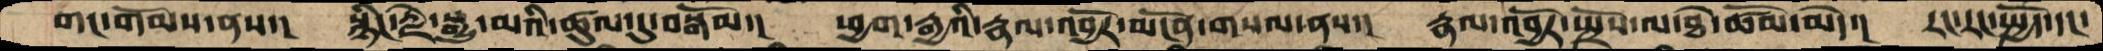གང་གོམས་ནས་།  སྙིང་རྗེ་སྒྱུ་མའི་ཚུལ་དུ་བསྒོམ་།  ཕྱག་རྒྱའི་རྣལ་འབྱོར་མངོན་གསལ་ནས་།  རྣལ་འབྱོར་སྤྲོས་ལ་ཐེ་ཚོམ་མེད་།  རང་རང་སྤྱོད་དང་
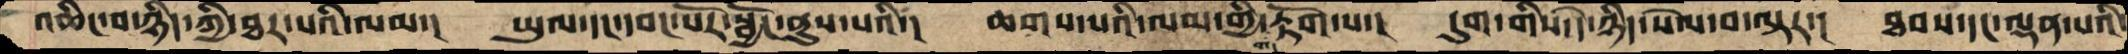འཆིང་བ་ཉིད་ཀྱི་ཐར་པའི་ལམ་། ཡུལ་དང་དབང་པོར་སྦྱོང་ནུས་པའི་། ཆགས་པའི་ལམ་གྱི་གོ་རྟོག་པ་། དུག་གིས་དེ་ཉིད་སེལ་བ་ལྟར་། ཐབས་དང་ལྡན་པའི་
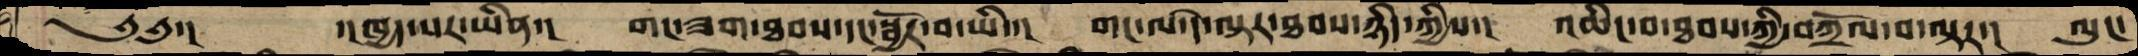༄༅་།  ་།ཁྱད་པར་ཡིན་། གང་ཟག་ཐབས་དང་སྦྱོར་བ་ཡིད་། གང་ལ་དེ་ལྟར་ཐབས་ཉིད་ཀྱིས་། འཆིང་བ་ཐབས་ཀྱི་བཀྲོལ་བ་ལྟར་། ལུང་
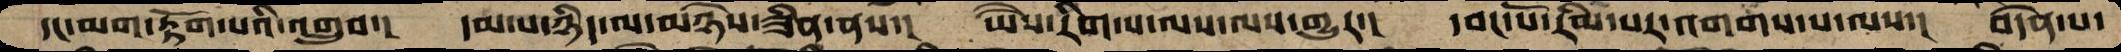དང་མག་རྟོག་པའི་འགྲུབ་།  དམ་པ་ཉིད་ལ་མཉེས་ཟིན་ནས་།  ཡཻས་རིག་པ་ལས་ལས་གྱུར་།  དབང་པོ་རིམ་པར་འགགས་པ་ལས་།  བདེན་པ་
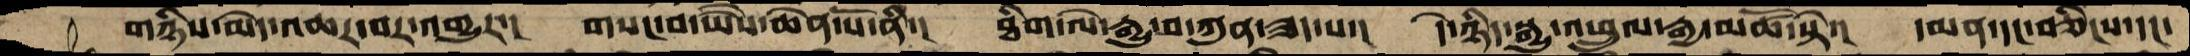གཉིས་མེད་འཆར་བར་འགྱུར་། གསང་བ་ཡཻས་ཆེན་པོ་ནི་། ཐིག་ལེ་རྒྱུ་བ་ཀུན་ཟད་པ་། དེ་ཉིད་སྒྱུ་འཕྲུལ་རྒྱ་མཚོ་སྟེ་། དམན་དང་བཅིངས་དང་
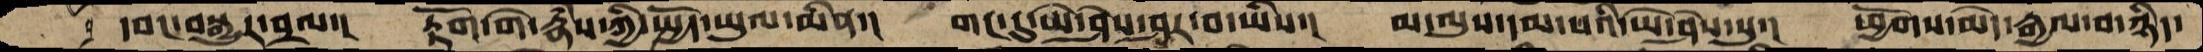དབང་བསྒྱུར་བྲལ་། རྟོག་གེ་རྣཾས་ཀྱི་སྤྱོད་ཡུལ་མིན་། གང་དུ་ཡེ་ཤེས་ཤར་བ་ཡིས་། མ་ལུས་དམ་པའི་ཡེ་ཤེས་སུ་། ཕྱོགས་མེད་རྒྱལ་བ་ཉིད་
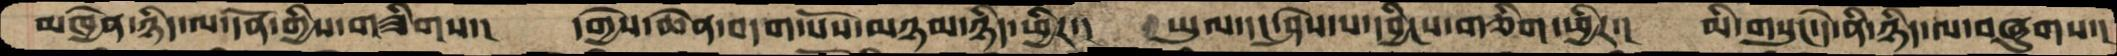མཁྱེན་ཉིད་ལ་དོན་གྱིས་གཟིགས་།  དགྱེས་ཆེན་བདག་པོས་མཉམ་ཉིད་ཕྱིར་།  ཡུལ་དང་ཤེས་པ་དབྱིངས་གཅིག་ཕྱིར་།  མི་གསུང་དེ་ནི་ཉིད་ལ་བཞུགས་།
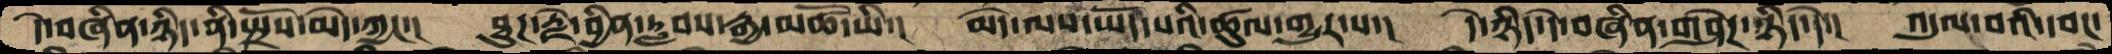དེ་བཞིན་ཉིད་ནི་སྤྲོས་མེད་ཀྱང་།  ཐུཌ་རྗེ་བྱིན་རླབས་རྒྱ་མཚོ་ཡི་།  མེད་ལས་ཡོད་པའི་ཚུལ་གྱུར་པ་།  དེ་ཉིད་དེ་བཞིན་གཤེཌ་ཉིད་དེ་།  འདུལ་བའི་དབང་
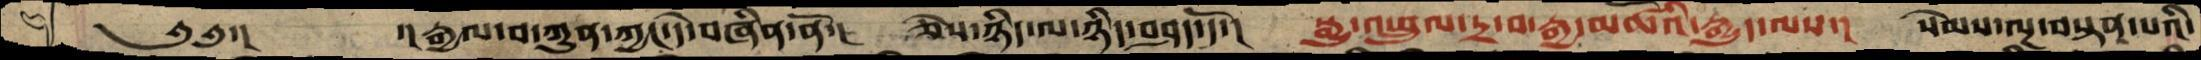༄༅་།    ་།རྒྱལ་བ་ཀུན་ཀྱང་དེ་བཞིནནོ་། ཅེས་ཉིད་ལ་ཉིད་བཤད་དོ་། སྒྱུ་འཕྲུལ་དྲ་བ་རྒྱ་མཚོའི་རྒྱུད་ལས་། སེམས་ལྔ་བསྟན་པའི་
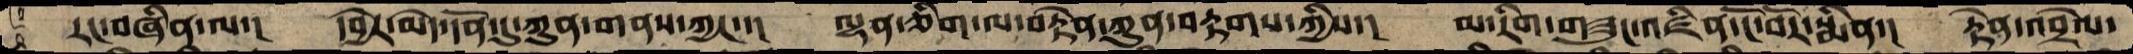རང་བཞིན་ལ་།  དབྱེར་མེད་དོན་དུ་ཀུན་གནས་ཀྱང་་།  ལྡན་ཅིག་ལ་བརྟེན་ཀུན་བརྟགས་ཀྱིས་།  མ་རིག་གཟུང་འཛིན་ངོ་བོར་སྨིན་།  རྟེན་འབྲེལ་
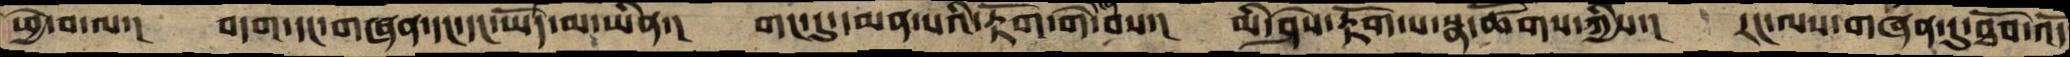ཕྱེ་བ་ལ་།  བདག་དང་གཞན་དང་དང་ཡོད་མ་ཡིན་།  གང་དུ་མན་པའི་རྟོག་གེ་བས་།  མི་ཤེས་རྟོག་པ་སྣ་ཚོགས་ཀྱིས་།  རང་ལས་གཞན་དུ་ཐོབ་འདོ
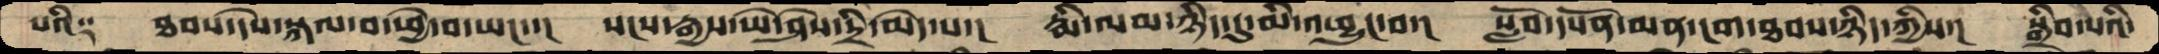པའི༑  ཐབས་དེས་སྐལ་བ་ཕྱེ་བ་ཡང་་།  སངས་རྒྱས་ཡེ་ཤེས་དྲི་མེད་པ་།  རྨི་ལམ་ཉིད་དུ་མི་འཕྱུང་བ་།  སློབ་དཔོན་མན་ངག་ཐབས་ཉིད་ཀྱིས་།  སྒྲིབ་པའི་
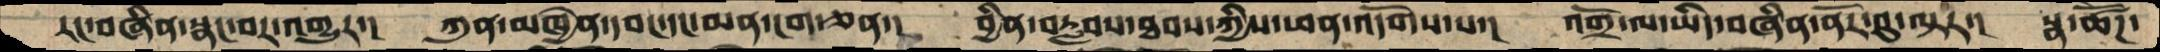རང་བཞིན་སྣང་བར་འགྱུར་།  ཀུན་མཁྱེན་དབང་དང་མན་ངག་ཅན་།  བྱིན་བརླབས་ཐབས་ཀྱིས་ཕན་འདོགས་པ་།  འགྲོ་ལ་ཡིད་བཞིན་ནོར་བུ་ལྟར་།  སྣ་ཚོཌ་
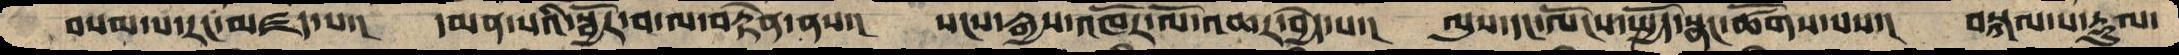བསམ་པ་རང་མཛད་པ་།  དམན་པའི་སྦྱོར་བ་ལ་བརྟེན་ནས་།  སངས་རྒྱས་འཁོར་ལོ་འཆར་བྱེད་པ་།  ལུས་དང་ལོངས་སྤྱོད་སྣང་ཚོགས་པས་།  བསྐལ་པ་རྡུལ་
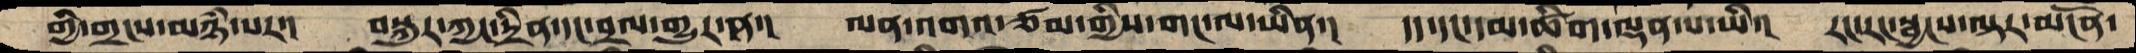གྱི་གྲངས་མཉཾ་པར་།  བསྐུར་ཀྱང་དྲིན་དང་བྲལ་གྱུར་ན་།  ལན་འགའ་ཙམ་གྱིས་གང་ལ་ཡིན་།  དད་དང་དམ་ཚིག་ལྡན་པ་ཡི་།  རང་རང་སྦྱངས་ལྟར་མངོན་
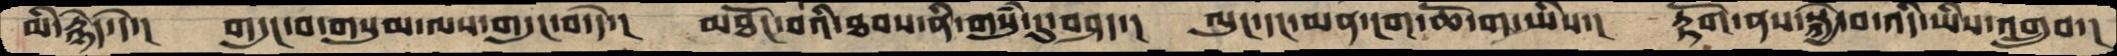མི་རྙེད་དེེ་།  གདུང་བ་གསུམ་ལས་གདུང་བ་དེ་།  མཐོང་བའི་ཐབས་ནི་གསུཾ་དུ་བཤད་།  ལུང་དང་མན་ངག་ཆོ་ག་ཡིས་།  རྟོག་ནས་སྐྱེ་བ་འདི་ཡིས་འགྲུབ་།
